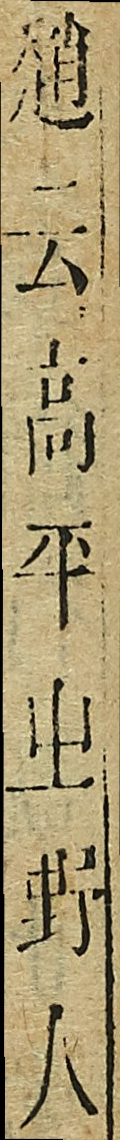趙云高平出野人
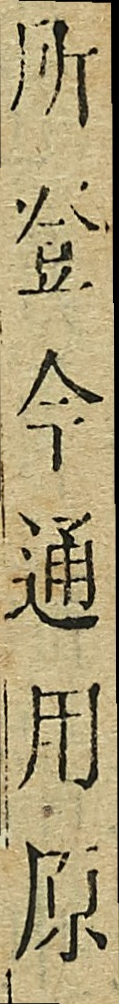所登今通用原
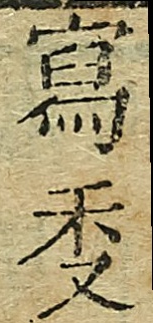寫秉
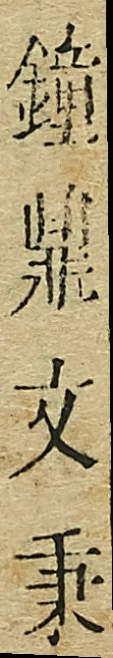鐘鼎交秉
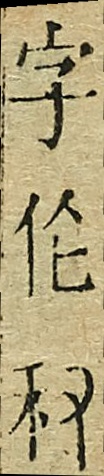字伦秉
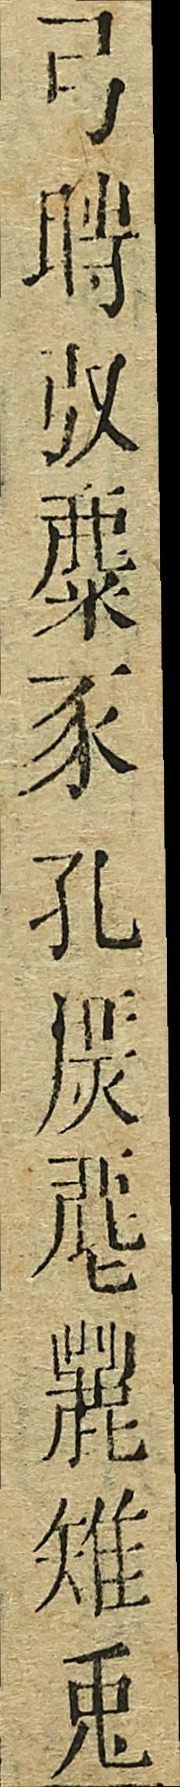弓時？麋豕孔？？？雉兔
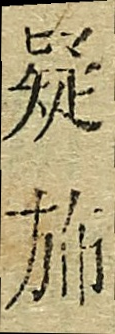疑斾
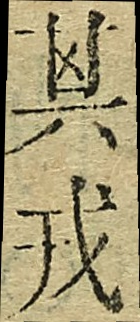其戎
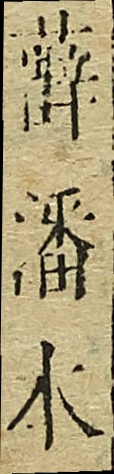薛潘木
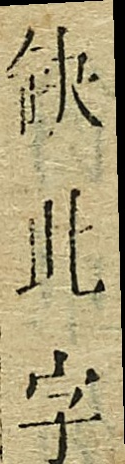缺此字
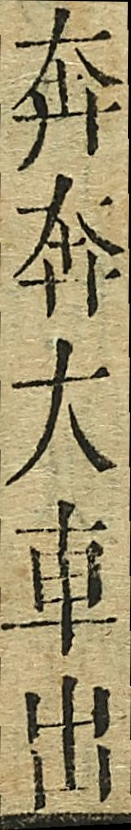奔奔大車出
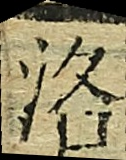洛
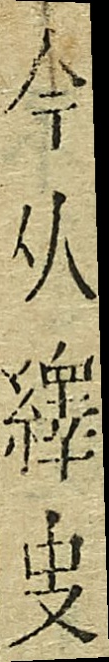今从繹㕜
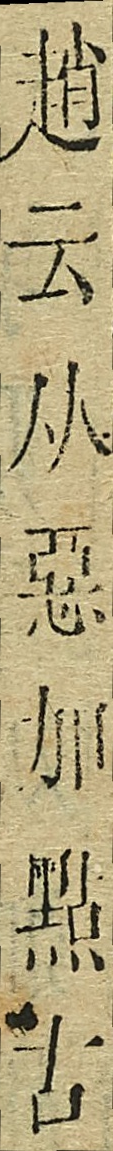趙云从惡加點古
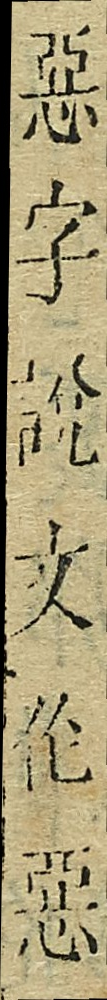惡字說文倫惡
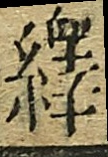繹
